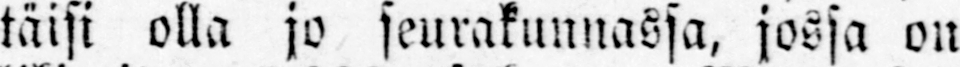täisi olla jo seurakunnassa, jossa on
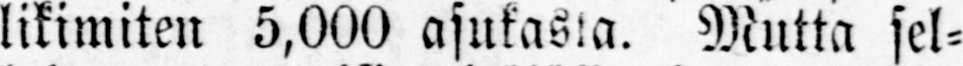likimiten 5,000 asukasta. Mutta sel-
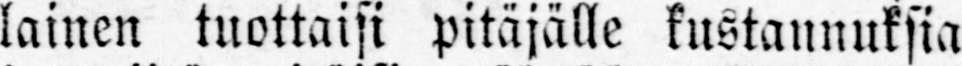lainen tuottaisi pitäjälle kustannuksia
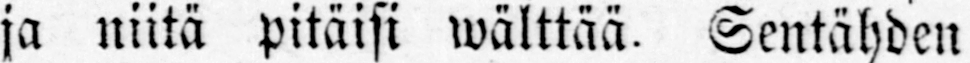ja niitä pitäisi wälttää. Sentähden
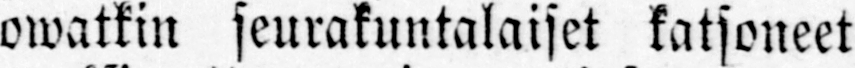owatkin seurakuntalaiset katsoneet pa-
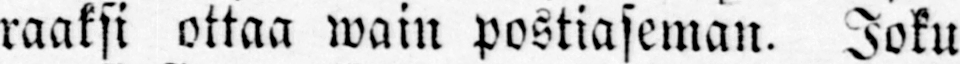raaksi ottaa wain postiaseman. Joku
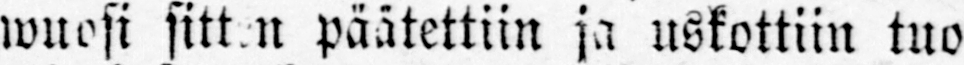wuosi sitten päätettiin ja uskottiin tuo
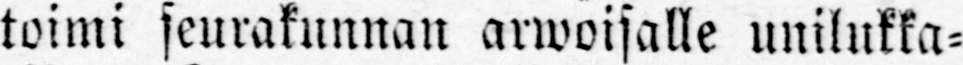toimi seurakunnan arwoisalle unilukka-
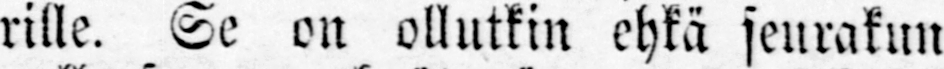rille. Se on ollutkin ehkä seurakun
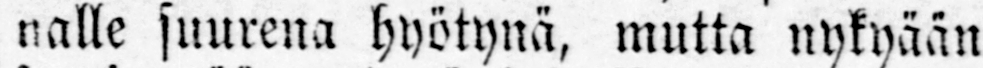nalle suurena hyötynä, mutta nykyään
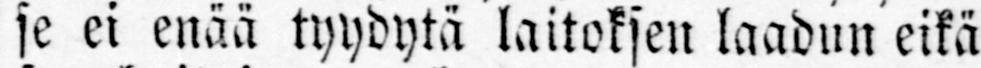se ei enää tyydytä laitoksen laadun eikä
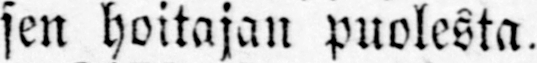sen hoitajan puolesta.
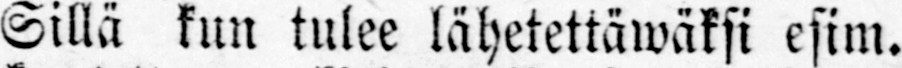Sillä kun tulee lähetettäwäksi esim.
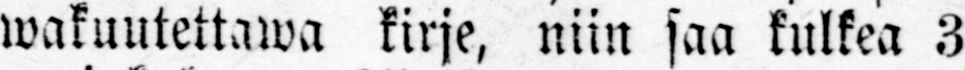wakuutettawa kirje, niin saa kulkea 3
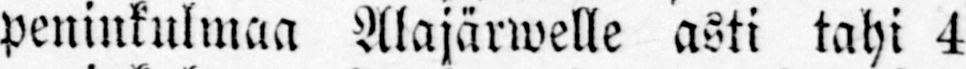peninkulmaa Alajärwelle asti tahi 4
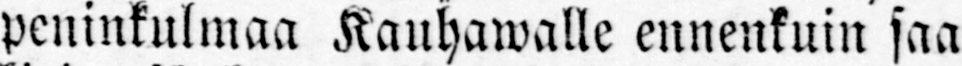peninkulmaa Kauhawalle ennenkuin saa
